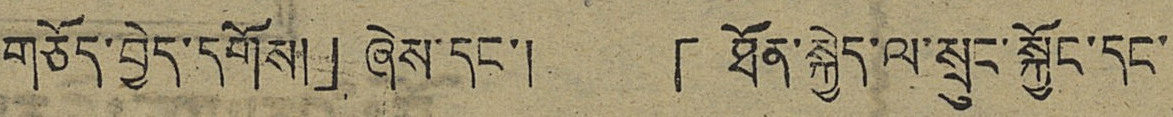གཅོད་བྱེད་དགོས།」ཞེས་དང་། 「ཐོན་སྐྱེད་ལ་སྲུང་སྐྱོང་དང་
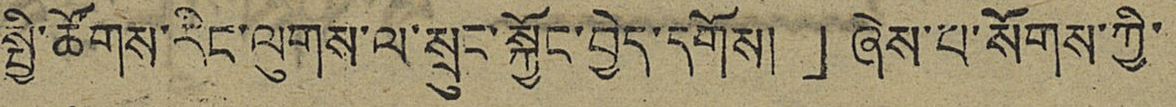སྤྱི་ཚོགས་རིང་ལུགས་ལ་སྲུང་སྐྱོང་བྱེད་དགོས།」ཞེས་པ་སོགས་ཀྱི་
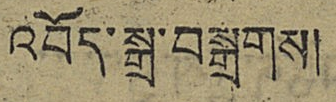འབོད་སྒྲ་བསྒྲགས།
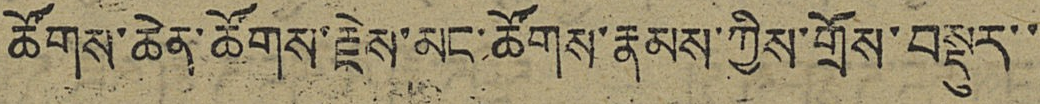ཚོགས་ཆེན་ཚོགས་རྗེས་མང་ཚོགས་རྣམས་ཀྱིས་གྲོས་བསྡུར་་
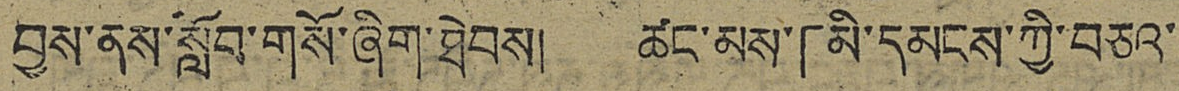བྱས་ནས་སློབ་གསོ་ཞིག་ཐེབས། ཚང་མས་「མི་དམངས་ཀྱི་བཅའ་
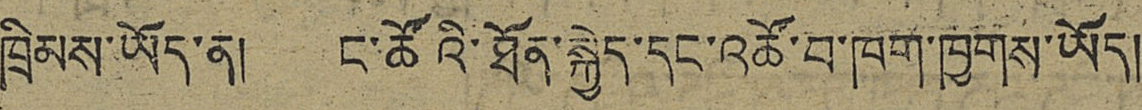ཁྲིམས་ཡོད་ན། ང་ཚོའི་ཐོན་སྐྱེད་དང་འཚོ་བ་ཁག་ཁྱགས་ཡོད།
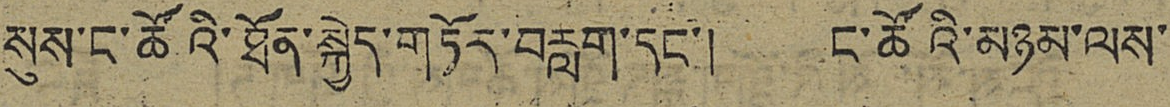སུས་ང་ཚོའི་ཐོན་སྐྱེད་གཏོར་བརླག་དང་། ང་ཚོའི་མཉམ་ལས་
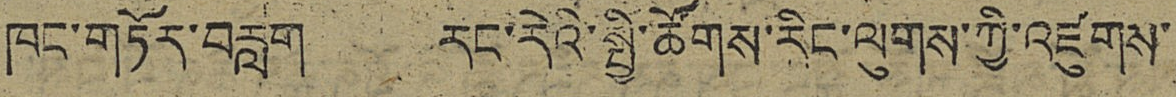ཁང་གཏོར་བརླག རང་རེའི་སྤྱི་ཚོགས་རིང་ལུགས་ཀྱི་འཛུགས་
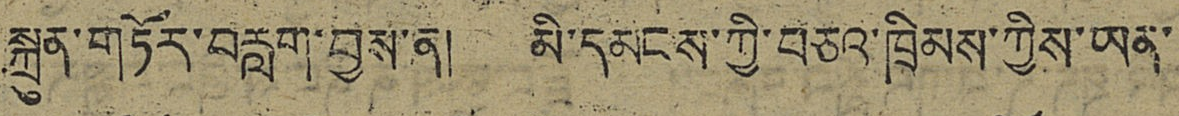སྐྲུན་གཏོར་བརླག་བྱས་ན། མི་དམངས་ཀྱི་བཅའ་ཁྲིམས་ཀྱིས་ཡན་
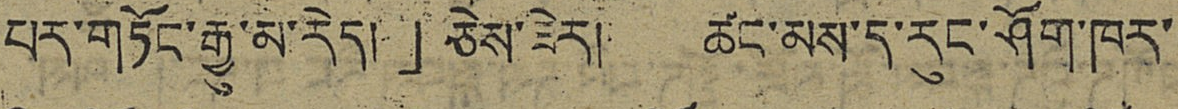པར་གཏོང་རྒྱུ་མ་རེད།」ཅེས་ཟེར། ཚང་མས་ད་རུང་ཤོག་ཁར་
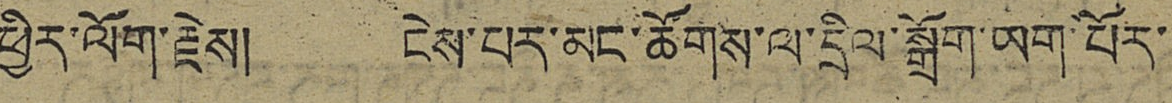ཕྱིར་ལོག་རྗེས། ངེས་པར་མང་ཚོགས་ལ་དྲིལ་སྒྲོག་ཡག་པོར་
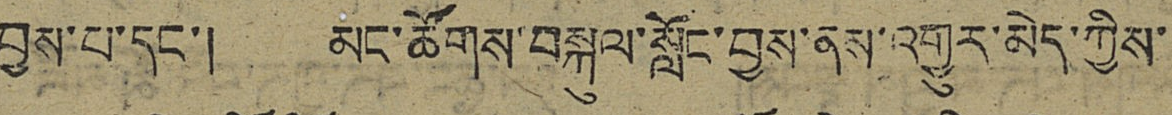བྱས་པ་དང་། མང་ཚོགས་བསྐུལ་སློང་བྱས་ནས་འགྱུར་མེད་ཀྱིས་
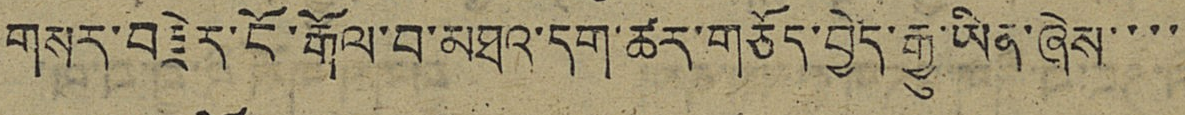གསར་བརྗེར་ངོ་རྒོལ་བ་མཐའ་དག་ཚར་གཅོད་བྱེད་རྒྱུ་ཡིན་ཞེས་་་་
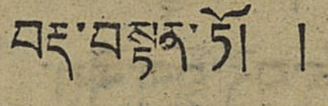བརྡ་བསྟན་ཏོ། །
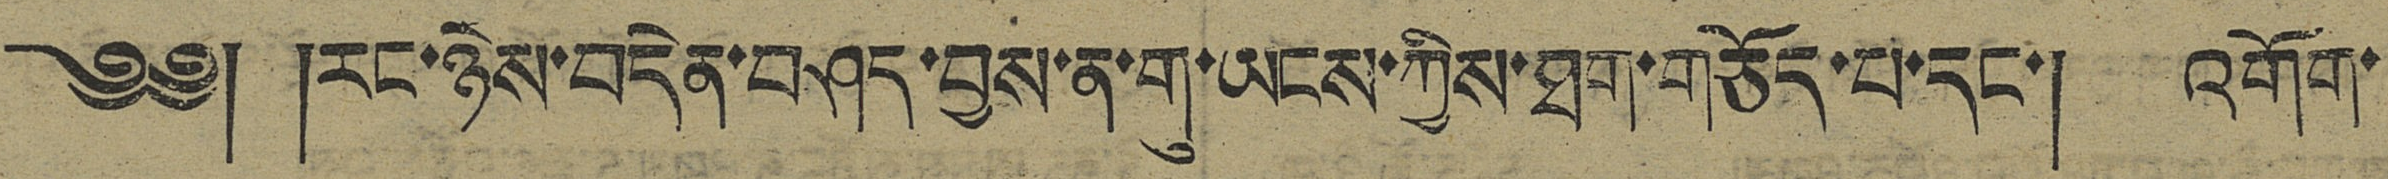༄༅། །རང་ཉེས་བདེན་བཤད་བྱས་ན་གུ་ཡངས་ཀྱིས་ཐག་གཅོད་པ་དང་། འགོག་
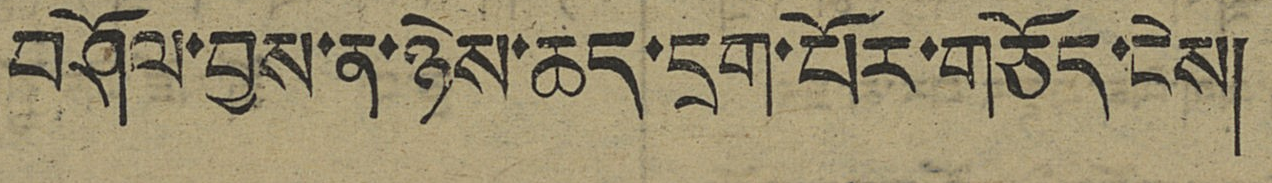བཤོལ་བྱས་ན་ཉེས་ཆད་དྲག་པོར་གཅོད་ངེས།
